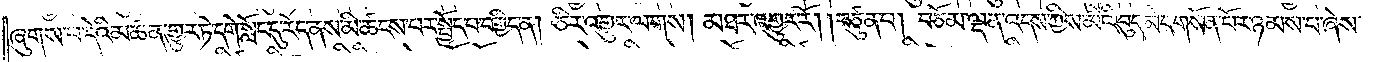ཞུགས་པ་དེའི་མཚན་གྱུར་ཏེ་དགེ་སློང་དུ་རེད་ནས་མི་ཚངས་པར་སྤྱོད་པ་བགྱིད་ན། ཅིར་འགྱུར་ལགས། མཐར་འགྱུར་རོ། །བཙུན་པ། བཅོམ་ལྡན་འདས་ཀྱིས་མིའི་བུད་མེད་གསོན་པོར་ཉམས་པ་ཞེས་
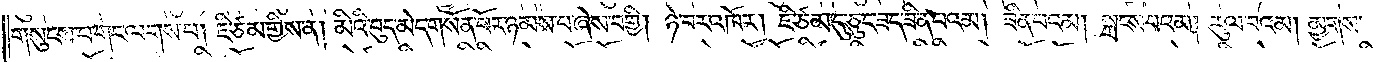གསུངས་པ་གང་ལགས་པ། ཇི་ཙམ་གྱིས་ན། མིའི་བུད་མེད་གསོན་པོར་ཉམས་པ་ཞེས་བགྱི། ཉེ་བར་འཁོར། ཇི་ཙམ་དུ་ཅུང་ཟད་ཟིན་པའམ། ཟིན་པའམ། སྐྲངས་པའམ། རུལ་བའམ། མྱགས་
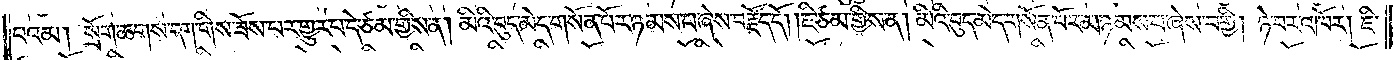བའམ། སྲོག་ཆགས་དག་གིས་ཟོས་པར་གྱུར་པ་དེ་ཙམ་གྱིས་ན། མིའི་བུད་མེད་གསོན་པོར་ཉམས་པ་ཞེས་བརྗོད་དོ། །ཇི་ཙམ་གྱིས་ན། མིའི་བུད་མེད་གསོན་པོར་མ་ཉམས་པ་ཞེས་བགྱི། ཉེ་བར་འཁོར། ཇི་
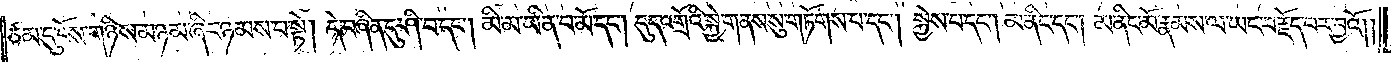ཙམ་དུ་ངོས་གཉིས་མཉམ་ཞིང་ཉམས་པ་སྟེ། དེ་བཞིན་དུ་ཤི་བ་དང༌། མི་མ་ཡིན་པ་མོ་དང༌། དུད་འགྲོའི་སྐྱེ་གནས་སུ་གཏོགས་པ་དང༌། སྐྱེས་པ་དང༌། མ་ནིང་དང༌། མ་ནིང་མོ་རྣམས་ལ་ཡང་བརྗོད་པར་བྱའོ༎
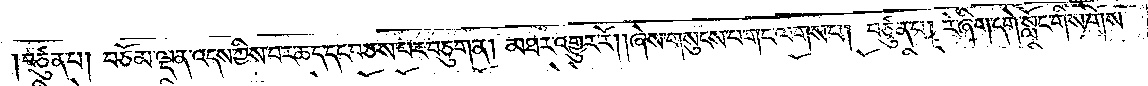།བཙུན་པ། བཅོམ་ལྡན་འདས་ཀྱིས་བར་ཆད་དང་བཅས་པར་བཅུག་ན། མཐར་འགྱུར་རོ། །ཞེས་གསུངས་པ་གང་ལགས་པ། བཙུན་པ། རེ་ཞིག་དགེ་སློང་གིས་གོས་
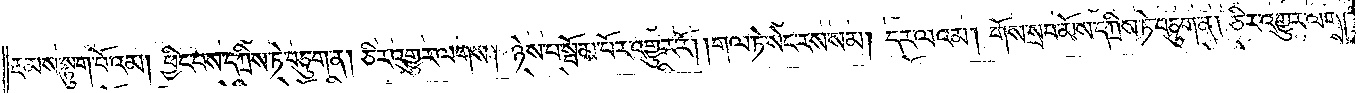རྔམས་སྟུག་པོའམ། ཕྱིང་པས་དཀྲིས་ཏེ་བཅུག་ན། ཅིར་འགྱུར་ལགས། ཉེས་པ་སྦོམ་པོར་འགྱུར་རོ། །གལ་ཏེ་སེང་རས་སམ། དར་ལའམ། གོས་སྲབ་མོས་དཀྲིས་ཏེ་བཅུག་ན། ཅིར་འགྱུར་ལགས།
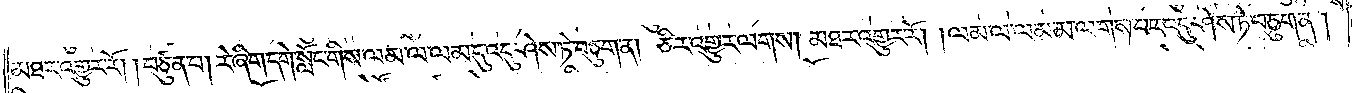མཐར་འགྱུར་རོ། །བཙུན་པ། རེ་ཞིག་དགེ་སློང་གིས་ལམ་ལ་ལམ་དུ་འདུ་ཤེས་ཏེ་བཅུག་ན། ཅིར་འགྱུར་ལགས། མཐར་འགྱུར་རོ། །ལམ་ལ་ལམ་མ་ལགས་པར་འདུ་ཤེས་ཏེ་བཅུག་ན།
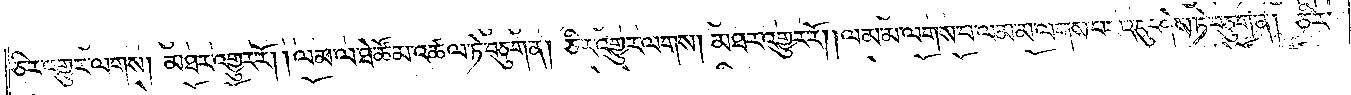ཅིར་འགྱུར་ལགས། མཐར་འགྱུར་རོ། །ལམ་ལ་ཐེ་ཚོམ་འཚལ་ཏེ་བཅུག་ན། ཅིར་འགྱུར་ལགས། མཐར་འགྱུར་རོ། །ལམ་མ་ལགས་པ་ལམ་མ་ལགས་པར་འདུ་ཤེས་ཏེ་བཅུག་ན། ཅིར་
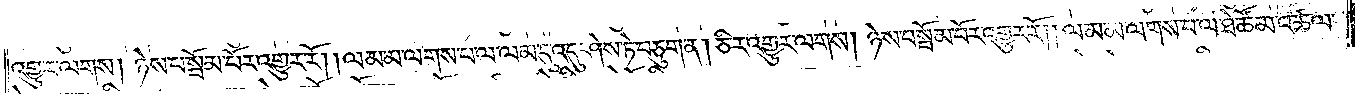འགྱུར་ལགས། ཉེས་པ་སྦོམ་པོར་འགྱུར་རོ། །ལམ་མ་ལགས་པ་ལ་ལམ་དུ་འདུ་ཤེས་ཏེ་བཅུག་ན། ཅིར་འགྱུར་ལགས། ཉེས་པ་སྦོམ་པོར་འགྱུར་རོ། །ལམ་མ་ལགས་པ་ལ་ཐེ་ཚོམ་འཚལ་
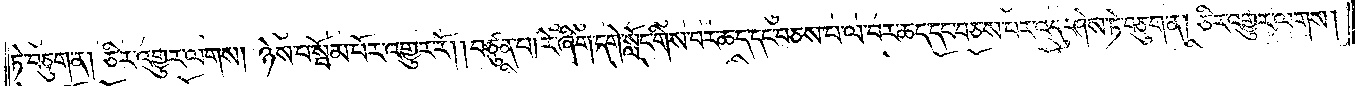ཏེ་བཅུག་ན། ཅིར་འགྱུར་ལགས། ཉེས་པ་སྦོམ་པོར་འགྱུར་རོ། །བཙུན་པ། རེ་ཞིག་དགེ་སློང་གིས་བར་ཆད་དང་བཅས་པ་ལ་བར་ཆད་དང་བཅས་པར་འདུ་ཤེས་ཏེ་བཅུག་ན། ཅིར་འགྱུར་ལགས།
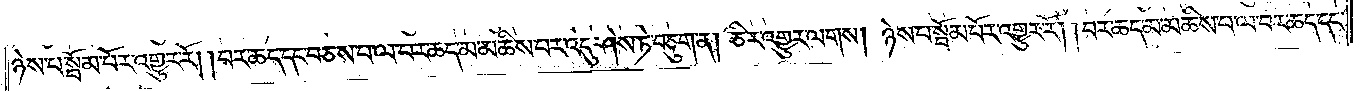ཉེས་པ་སྦོམ་པོར་འགྱུར་རོ། །བར་ཆད་དང་བཅས་པ་ལ་བར་ཆད་མ་མཆིས་པར་འདུ་ཤེས་ཏེ་བཅུག་ན། ཅིར་འགྱུར་ལགས། ཉེས་པ་སྦོམ་པོར་འགྱུར་རོ། །བར་ཆད་མ་མཆིས་པ་ལ་བར་ཆད་དང་
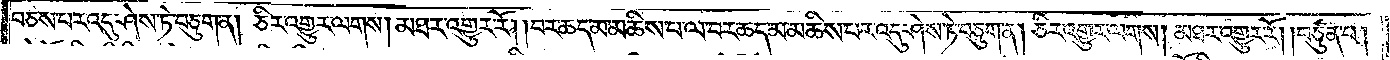བཅས་པར་འདུ་ཤེས་ཏེ་བཅུག་ན། ཅིར་འགྱུར་ལགས། མཐར་འགྱུར་རོ། །བར་ཆད་མ་མཆིས་པ་ལ་བར་ཆད་མ་མཆིས་པར་འདུ་ཤེས་ཏེ་བཅུག་ན། ཅིར་འགྱུར་ལགས། མཐར་འགྱུར་རོ། །བཙུན་པ།
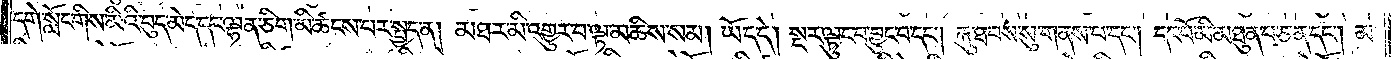དགེ་སློང་གིས་མིའི་བུད་མེད་དང་ལྷན་ཅིག་མི་ཚངས་པར་སྤྱད་ན། མཐར་མི་འགྱུར་བ་ལྟ་མཆིས་སམ། ཡོད་དེ། སྔར་ལྟུང་བ་བྱུང་བ་དང༌། རྐུ་ཐབས་སུ་གནས་པ་དང༌། དང་པོ་མི་མཐུན་པ་ཅན་དང༌། མ་
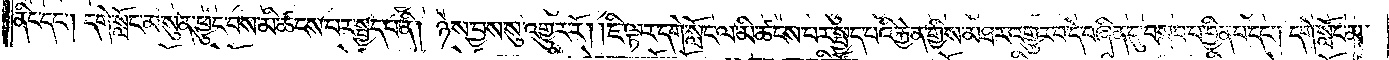ནིང་དང༌། དགེ་སློང་མ་སུན་ཕྱུང་བས་མི་ཚངས་པར་སྤྱད་པ་ནི། ཉེས་བྱས་སུ་འགྱུར་རོ། །ཇི་ལྟར་དགེ་སློང་ལ་མི་ཚངས་པར་སྤྱད་པའི་རྐྱེན་གྱིས་མཐར་འགྱུར་བ་དེ་བཞིན་དུ་བསླབ་པ་བྱིན་པ་དང༌། དགེ་སློང་མ་
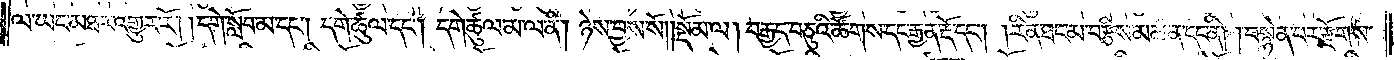ལ་ཡང་མཐར་འགྱུར་རོ། །དགེ་སློབ་མ་དང༌། དགེ་ཚུལ་དང༌། དགེ་ཚུལ་མ་ལ་ནི། ཉེས་བྱས་སོ། །སྡོམ་ལ། བརྒྱད་བཅུའི་ཚོགས་དང་རྒྱན་རྡོ་དང༌། །རིན་ཐང་མ་བརྩིས་མཚན་དང་ནི། །བསྙེན་པར་རྫོགས་
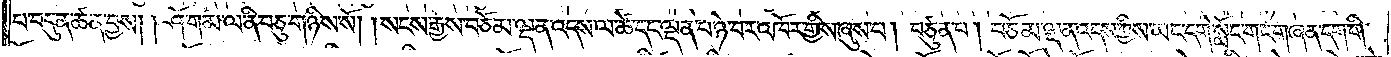པ་བདུན་ཚན་བྱས། །ཤོ་གམ་ལ་ནི་བཅུ་གཉིས་སོ། །སངས་རྒྱས་བཅོམ་ལྡན་འདས་ལ་ཚེ་དང་ལྡན་པ་ཉེ་བར་འཁོར་གྱིས་ཞུས་པ། བཙུན་པ། བཅོམ་ལྡན་འདས་ཀྱིས་ཡང་དགེ་སློང་གང་གཞན་དག་གི་
